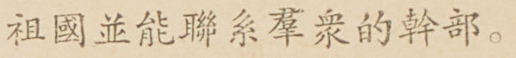祖國並能聯系羣衆的幹部。
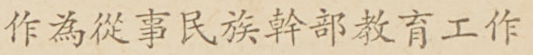作為從事民族幹部教育工作
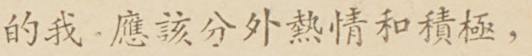的我，應該分外熱情和積極，
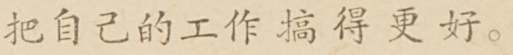把自己的工作搞得更好。
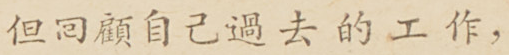但囘顧自己過去的工作，
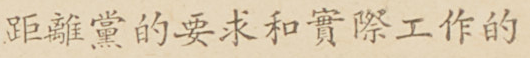距離黨的要求和實際工作的
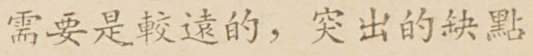需要是較遠的，突出的缺點
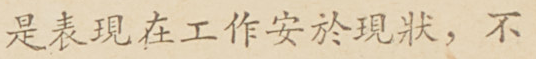是表現在工作安於現狀，不
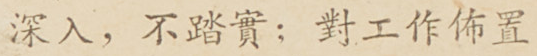深入，不踏實；對工作佈置
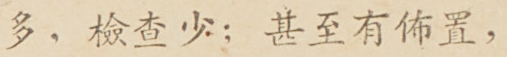多，檢查少；甚至有佈置，
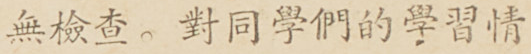無檢查。對同學們的學習情
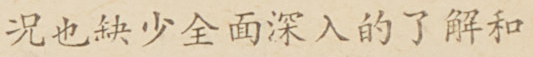況也缺少全面深入的了解和
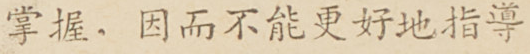掌握，因而不能更好地指導
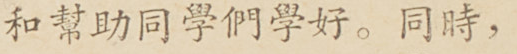和幫助同學們學好。同時，
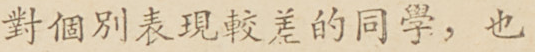對個別表現較差的同學，也
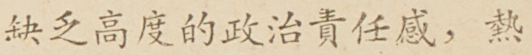缺乏高度的政治責任感，熱
